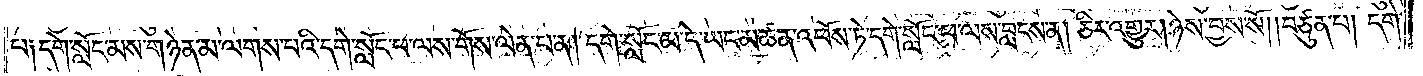པ༑ དགེ་སློང་མས་གཉེན་མ་ལགས་པའི་དགེ་སློང་ཕ་ལས་གོས་ལེན་པ་ན། དགེ་སློང་མ་དེ་ཡང་མཚན་འཕོས་ཏེ་དགེ་སློང་ཕ་ལས་བླངས་ན། ཅིར་འགྱུར། ཉེས་བྱས་སོ། །བཙུན་པ། དགེ་
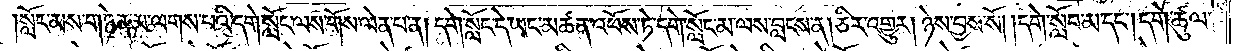སློང་མས་གཉེན་མ་ལགས་པའི་དགེ་སློང་ལས་གོས་ལེན་པ་ན། དགེ་སློང་དེ་ཡང་མཚན་འཕོས་ཏེ་དགེ་སློང་མ་ལས་བླངས་ན། ཅིར་འགྱུར། ཉེས་བྱས་སོ། །དགེ་སློབ་མ་དང༌། དགེ་ཚུལ་
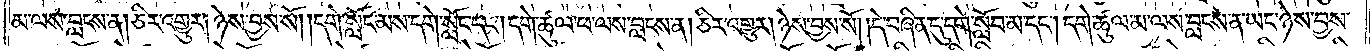མ་ལས་བླངས་ན། ཅིར་འགྱུར། ཉེས་བྱས་སོ། །དགེ་སློང་མས་དགེ་སློང་དང༌། དགེ་ཚུལ་ཕ་ལས་བླངས་ན། ཅིར་འགྱུར། ཉེས་བྱས་སོ། །དེ་བཞིན་དུ་དགེ་སློབ་མ་དང༌། དགེ་ཚུལ་མ་ལས་བླངས་ན་ཡང་ཉེས་བྱས་
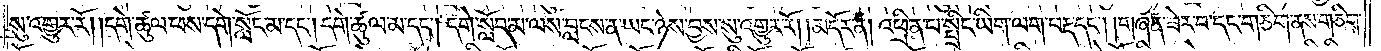སུ་འགྱུར་རོ། དགེ་ཚུལ་ཕས་དགེ་སློང་མ་དང༌། དགེ་ཚུལ་མ་དང༌། དགེ་སློབ་མ་ལས་བླངས་ན་ཡང་ཉེས་བྱས་སུ་འགྱུར་རོ།    །མདོར་ན། འཕྲིན་པ་སྤྲིང་ཡིག་ལག་བརྡ་དང༌། །གཞན་ཟེར་བ་དང་གཅིག་ནས་གཅིག་
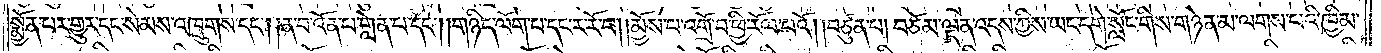སྨྱོན་པར་གྱུར་དང་སེམས་འཁྲུགས་དང༌། །ན་བ་འོན་པ་གླེན་པ་དང༌། །གཉིད་ལོག་པ་དང་ར་རོ་བ། །མྱོས་པ་འགྲོ་བ་ཕྱི་རོལ་པའོ། །བཙུན་པ། བཅོམ་ལྡན་འདས་ཀྱིས་ཡང་དགེ་སློང་གིས་གཉེན་མ་ལགས་པའི་ཁྱིམ་
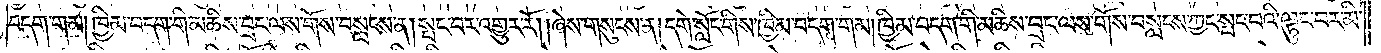བདག་གམ། ཁྱིམ་བདག་གི་མཆིས་བྲང་ལས་གོས་བསླངས་ན། སྤང་བར་འགྱུར་རོ། །ཞེས་གསུངས་ན། དགེ་སློང་གིས་ཁྱིམ་བདག་གམ། ཁྱིམ་བདག་གི་མཆིས་བྲང་ལས་གོས་བསླངས་ཀྱང་སྤང་པའི་ལྟུང་བར་མི་
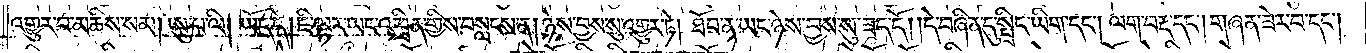འགྱུར་བ་མཆིས་སམ། ཨུ་པ་ལི། ཡོད་དེ། ཇི་ལྟར་ཡང་འཕྲིན་གྱིས་བསླངས་ན། ཉེས་བྱས་སུ་འགྱུར་ཏེ། ཐོབ་ན་ཡང་ཉེས་བྱས་སུ་ཟད་དོ། །དེ་བཞིན་དུ་སྤྲིང་ཡིག་དང༌། ལག་བརྡ་དང༌། གཞན་ཟེར་བ་དང༌།
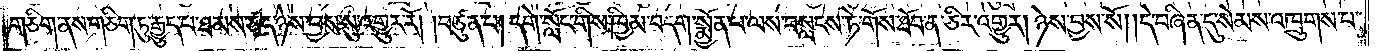གཅིག་ནས་གཅིག་ཏུ་རྒྱུད་པ་ཐམས་ཅད་ཉེས་བྱས་སུ་འགྱུར་རོ། །བཙུན་པ། དགེ་སློང་གིས་ཁྱིམ་བདག་སྨྱོན་པ་ལས་བསླངས་ཏེ་གོས་ཐོབ་ན་ཅིར་འགྱུར། ཉེས་བྱས་སོ། །དེ་བཞིན་དུ་སེམས་འཁྲུགས་པ་
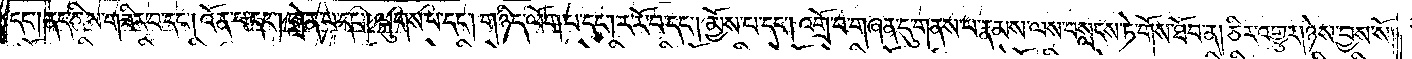དང༌། ནད་ཀྱིས་གཟིར་བ་དང༌། འོན་པ་དང༌། གླེན་པ་དང༌། ལྐུགས་པ་དང༌། གཉིད་ལོག་པ་དང༌། ར་རོ་བ་དང༌། མྱོས་པ་དང༌། འགྲོ་བ་གཞན་དུ་གནས་པ་རྣམས་ལས་བསླངས་ཏེ་གོས་ཐོབ་ན། ཅིར་འགྱུར། ཉེས་བྱས་སོ། །
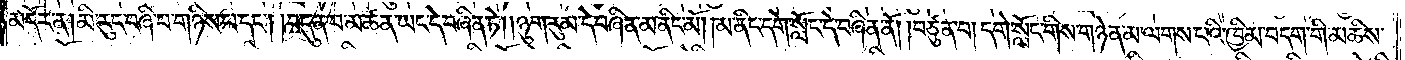མདོར་ན། མི་རུང་བཞི་པ་གཉིས་པ་དང༌། བདུན་པ་མཚན་ཡང་དེ་བཞིན་ཏེ། །ཉུག་རུམ་དེ་བཞིན་མ་ནིང་མོ། །མ་ནིང་དགེ་སློང་དེ་བཞིན་ནོ། །བཙུན་པ། དགེ་སློང་གིས་གཉེན་མ་ལགས་པའི་ཁྱིམ་བདག་གི་མཆིས་
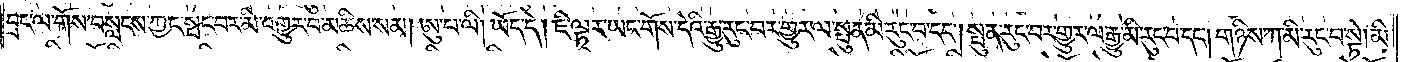བྲང་ལ་གོས་བསླངས་ཀྱང་སྤང་བར་མི་འགྱུར་བ་མཆིས་སམ། ཨུ་པ་ལི། ཡོད་དེ། ཇི་ལྟར་ཡང་གོས་དེའི་རྒྱུ་རུང་བར་གྱུར་ལ་སྤུན་མི་རུང་བ་དང༌། སྤུན་རུང་བར་གྱུར་ལ་རྒྱུ་མི་རུང་བ་དང༌། གཉིས་ཀ་མི་རུང་བ་སྟེ། མི་
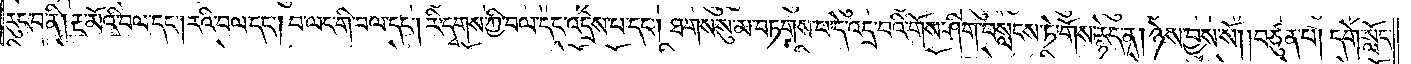རུང་བ་ནི། རྔ་མོའི་བལ་དང༌། རའི་བལ་དང༌། བ་ལང་གི་བལ་དང༌། རི་དྭགས་ཀྱི་བལ་དང་འདྲེས་པ་དང༌། ཐགས་སུ་མ་བཏགས་པ་དེ་འདྲ་བའི་གོས་ཤིག་བསླངས་ཏེ་གོས་རྙེད་ན། ཉེས་བྱས་སོ། །བཙུན་པ། དགེ་སློང་
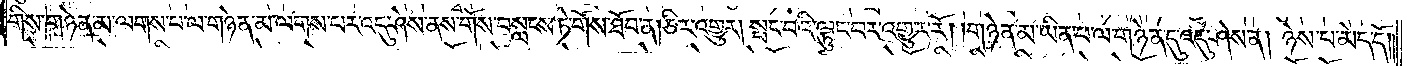གིས་གཉེན་མ་ལགས་པ་ལ་གཉེན་མ་ལགས་པར་འདུ་ཤེས་ནས་གོས་བསླངས་ཏེ་གོས་ཐོབ་ན། ཅིར་འགྱུར། སྤང་བའི་ལྟུང་བར་འགྱུར་རོ། །གཉེན་མ་ཡིན་པ་ལ་གཉེན་དུ་འདུ་ཤེས་ན། ཉེས་པ་མེད་དོ༎
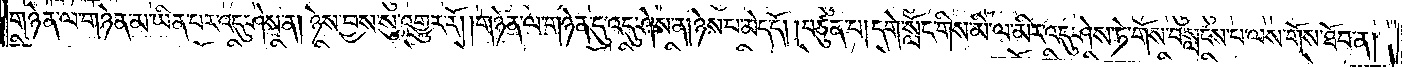གཉེན་ལ་གཉེན་མ་ཡིན་པར་འདུ་ཤེས་ན། ཉེས་བྱས་སུ་འགྱུར་རོ། །གཉེན་ལ་གཉེན་དུ་འདུ་ཤེས་ན། ཉེས་པ་མེད་དོ། །བཙུན་པ། དགེ་སློང་གིས་མི་ལ་མིར་འདུ་ཤེས་ཏེ་གོས་བསླངས་པ་ལས་གོས་ཐོབ་ན།
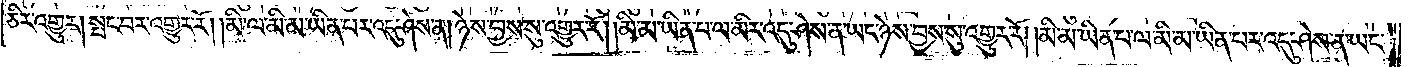ཅིར་འགྱུར། སྤང་བར་འགྱུར་རོ། །མི་ལ་མི་མ་ཡིན་པར་འདུ་ཤེས་ན། ཉེས་བྱས་སུ་འགྱུར་རོ། །མི་མ་ཡིན་པ་ལ་མིར་འདུ་ཤེས་ན་ཡང་ཉེས་བྱས་སུ་འགྱུར་རོ། །མི་མ་ཡིན་པ་ལ་མི་མ་ཡིན་པར་འདུ་ཤེས་ན་ཡང་
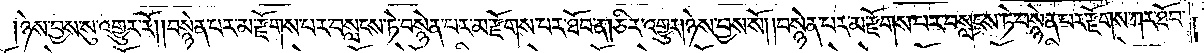ཉེས་བྱས་སུ་འགྱུར་རོ། །བསྙེན་པར་མ་རྫོགས་པར་བསླངས་ཏེ་བསྙེན་པར་མ་རྫོགས་པར་ཐོབ་ན། ཅིར་འགྱུར། ཉེས་བྱས་སོ། །བསྙེན་པར་མ་རྫོགས་པར་བསླངས་ཏེ་བསྙེན་པར་རྫོགས་ཀར་ཐོབ་
